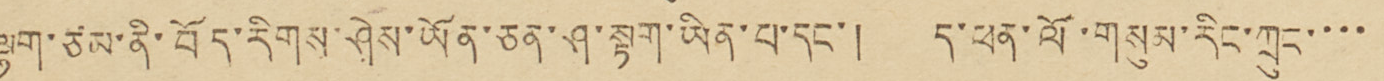ལྷག་ཙམ་ནི་བོད་རིགས་ཤེས་ཡོན་ཅན་ཤ་སྟག་ཡིན་པ་དང་། ད་ཕན་ལོ་གསུམ་རིང་ཀྲུང་་་་
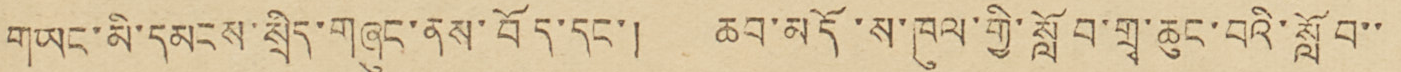གཡང་མི་དམངས་སྲིད་གཞུང་ནས་བོད་དང་། ཆབ་མདོ་ས་ཁུལ་གྱི་སློབ་གྲྭ་ཆུང་བའི་སློབ་་
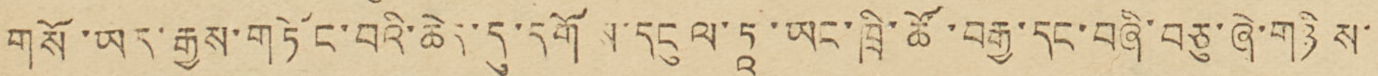གསོ་ཡར་རྒྱས་གཏོང་བའི་ཆེད་དུ་དགོས་དངུལ་དཱ་ཡང་ཁྲི་ཚོ་བརྒྱ་དང་བཞི་བཅུ་ཞེ་གཉིས་་
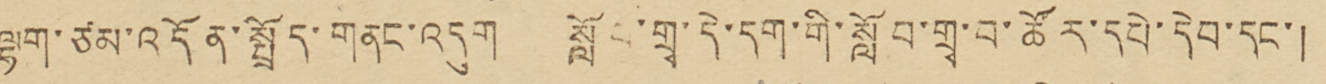ལྷག་ཙམ་འདོན་སྤྲོད་གནང་འདུག སློབ་གྲྭ་དེ་དག་གི་སློབ་གྲྭ་བ་ཚོར་དཔེ་དེབ་དང་།
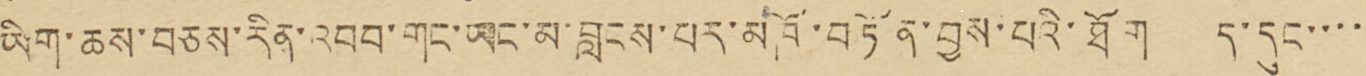ཡིག་ཆས་བཅས་རིན་འབབ་གང་ཡང་མ་བླངས་པར་མཁོ་བཏོན་བྱས་པའི་ཐོག ད་དུང་་་་་
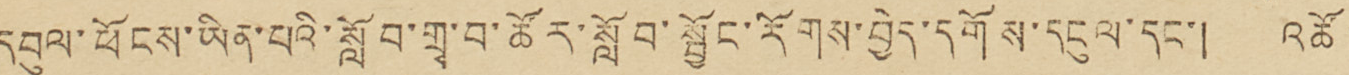དབུལ་ཕོངས་ཡིན་པའི་སློབ་གྲྭ་བ་ཚོར་སློབ་སྦྱོང་རོགས་བྱེད་དགོས་དངུལ་དང་། འཚོ་་
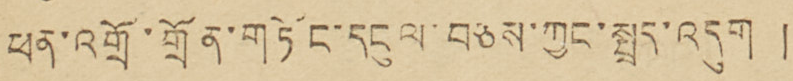ཕན་འགྲོ་གྲོན་གཏོང་དངུལ་བཅས་ཀྱང་སྤྲད་འདུག།།
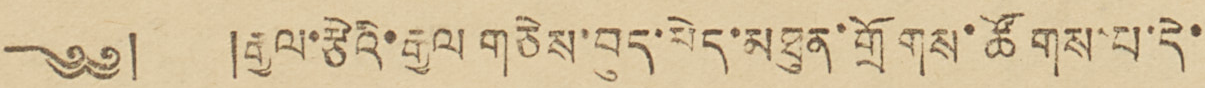༄༅། །རྒྱལ་རྩེའི་རྒྱལ གཅེས་བུད་མེད་མཐུན་གྲོགས་ཚོགས་པ་དེ་
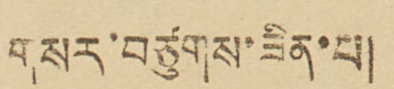གསར་བཙུགས་ཟིན་པ།
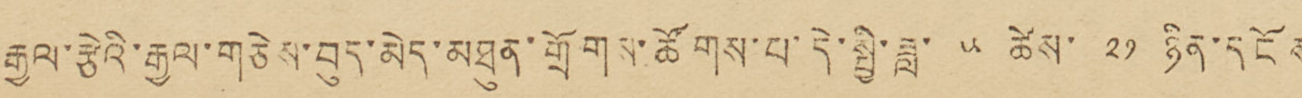རྒྱལ་རྩེའི་རྒྱལ་གཅེས་བུད་མེད་མཐུན་གྲོགས་ཚོགས་པ་དེ་སྤྱི་ཟླ་ ༥ ཚེས་ ༢༡ ཉིན་དངོས
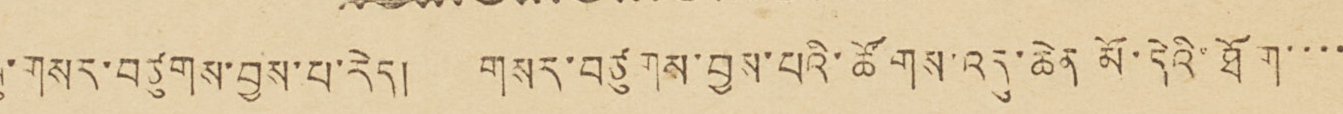སུ་གསར་བཙུགས་བྱས་པ་རེད། གསར་བཙུགས་བྱས་པའི་ཚོགས་འདུ་ཆེན་མོ་དེའི་ཐོག་་་་
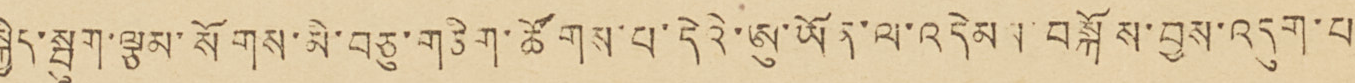སྐྱིད་སྦུག་ལྕམ་སོགས་མི་བཅུ་གཅིག་ཚོགས་པ་དེའི་ཨུ་ཡོན་ལ་འདེམས་བསྐོས་བྱས་འདུག་པ་
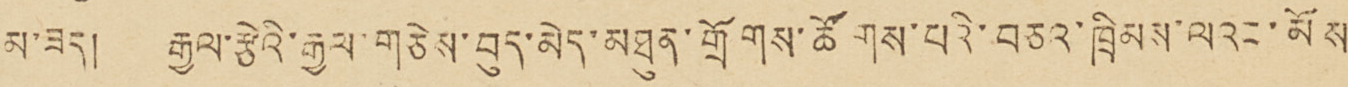མ་ཟད། རྒྱལ་རྩེའི་རྒྱལ་གཅེས་བུད་མེད་མཐུན་གྲོགས་ཚོགས་པའི་བཅའ་ཁྲིམས་ལའང་མོས་་
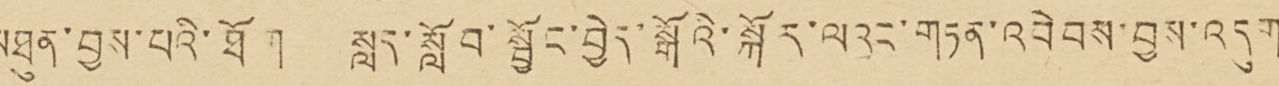མཐུན་བྱས་པའི་ཐོག སླད་སློབ་སྦྱོང་བྱེད་སྒོའི་སྐོར་ལའང་གཏན་འབེབས་བྱས་འདུག
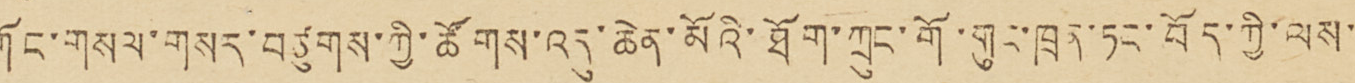གོང་གསལ་གསར་བཙུགས་ཀྱི་ཚོགས་འདུ་ཆེན་མོའི་ཐོག་ཀྲུང་གོ་གུང་ཁྲན་ཏང་བོད་ཀྱི་ལས་
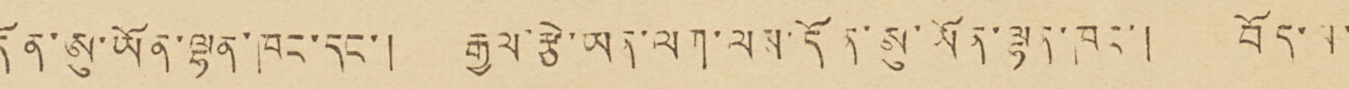དོན་ཨུ་ཡོན་ལྷན་ཁང་དང་། རྒྱལ་རྩེ་ཡན་ལག་ལས་དོན་ཨུ་ཡོན་ལྷན་ཁང་། བོད་ས་
